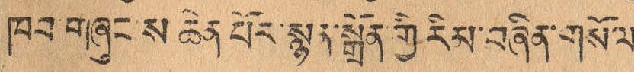ཁབ་གཞུང་ས་ཆེན པོར་སྙན་སྒྲོན་གྱི རིམ་བཞིན་གསོལ་
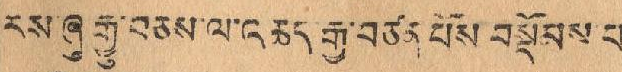རས་ཞུ་རྒྱུ་བཅས་ལ་འཆད རྒྱ་བཙན པོས བསྡོམས་པ་
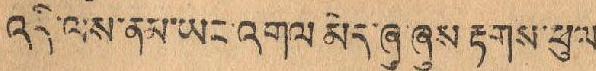འདི་ལས་ནམ་ཡང་འགལ མེད་ཞུ་ཞུས་རྟགས་ཕུལ་
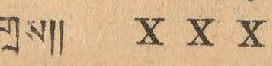གྲས།། X X X
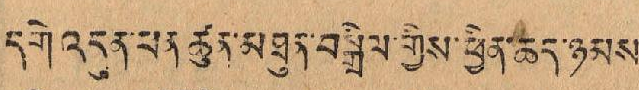དགེ འདུན་ཕན་ཚུན་མཐུན་བསྒྲིལ་གྱིས་ཕྱིན་ཆད་ཉམས་
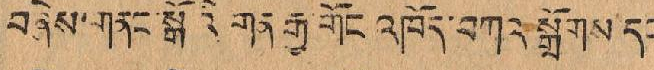བཞེས་གནང་སྒོའི གན རྒྱ་གོང འཁོད་བཀའ་སྒྲོགས་དང་
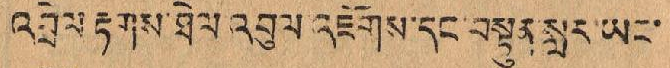འབྲེལ རྟགས་ཐེལ འབུལ་འཇོགས་དང་བསྟུན་སླར ཡང་
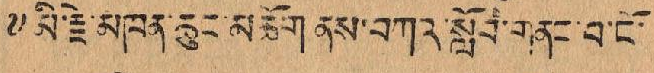༸མི་རྗེ་མཁན་ཆུང་མཆོག ནས་བཀའ་སློབ་གནང་བ་ངོ་
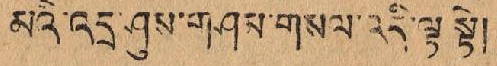མའི་འདྲ་ཤུས་གཤམ་གསལ་འདི་ལྟ་སྟེ།
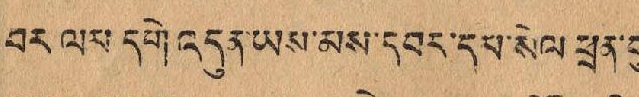བར་ལམ དགེ་འདུན་ཡས་མས་དབར་དམ་སེལ ཕྲན་བུ་
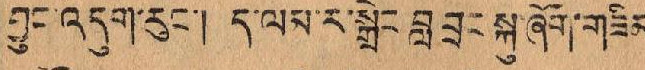བྱུང་འདུག་རུང་། ད་ལམ་ར་སྒྲེང་བླ་བྲང་སྐུ་ཞོག་གཟིམ་
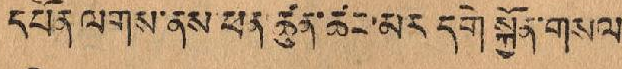དཔོན་ལགས་ནས་ཕན་ཚུན་ཚང་མར་དགེ སྐྱོང་གསལ་
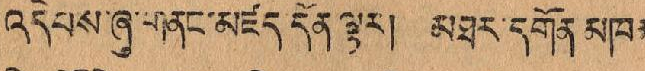འདེབས་ཞུས་གནང་མཛད དོན ལྟར། མཐར་དགོན མཁན་
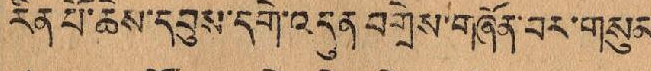རིན་པོ་ཆེས་དབུས་དགེ་འདུན་བགྲེས་གཞོན་བར་གསུམ་
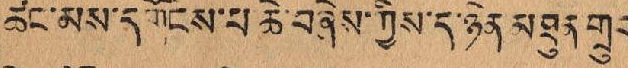ཚང་མས་དགོངས་པ ཆེ་བཞེས་ཀྱིས་ད་ཉིན་མཐུན་གྲུབ་
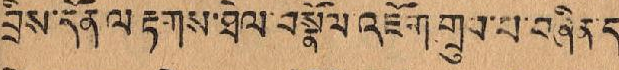བྲིས་དོན་ལ་རྟགས་ཐེལ་བསྣོལ་འཇོག་གྲུབ་པ་བཞིན་ད་
